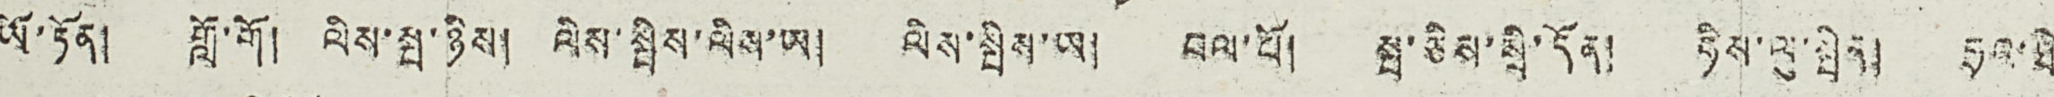ཡོ་ཏོན། གློ་གོ། ལིས་སྤ་ཉིས། ལིས་སྤིས་ལིས་ཡ། ལིས་སྤིས་ཡ། བལ་པོ། སྤ་ཅིས་སྲི་དོན། ཧིས་ལུ་སྤིན། ཧྲའ་ཐི་
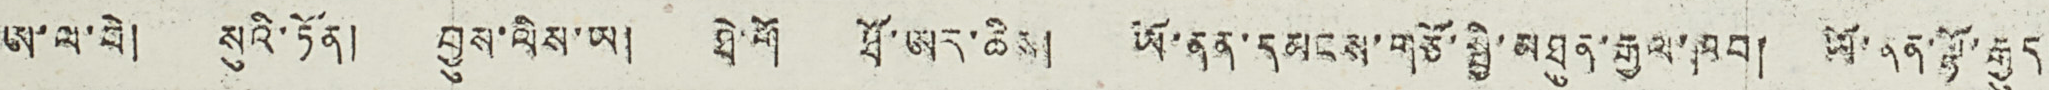ཨ་ལ་བེ། སུའི་ཏོན། བྱུས་ལིས་ཡ། ཐེ་གོ ཐོ་ཨར་ཆིས། ཡོ་ནན་དམངས་གཙོ་སྤྱི་མཐུན་རྒྱལ་ཁབ། ཡོ་ནན་ལྷོ་རྒྱུད།
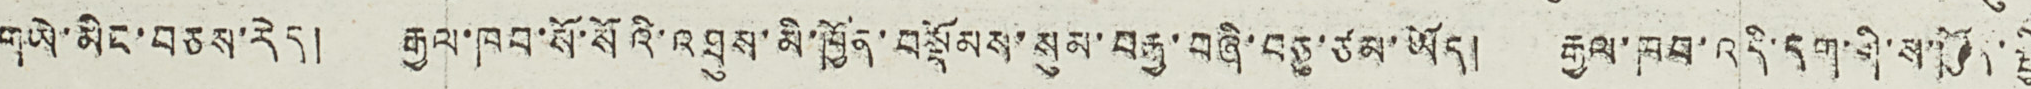གཡེ་མིང་བཅས་རེད། རྒྱལ་ཁབ་སོ་སོའི་འཐུས་མི་ཁྱོན་བསྡོམས་སུམ་བརྒྱ་བཞི་བཅུ་ཙམ་ཡོད། རྒྱལ་ཁབ་འདི་དག་གི་ས་ཁྱོན་སྤྱི་
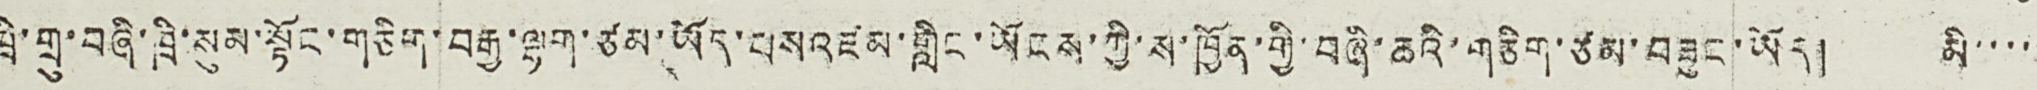ཁྲི་གྲུ་བཞི་ཁྲི་སུམ་སྟོང་གཅིག་བརྒྱ་ལྷག་ཙམ་ཡོད་པས འཛམ་གླིང་ཡོངས་ཀྱི་ས་ཁྱོན་གྱི་བཞི་ཆའི་གཅིག་ཙམ་བཟུང་ཡོད། མི་་་་་
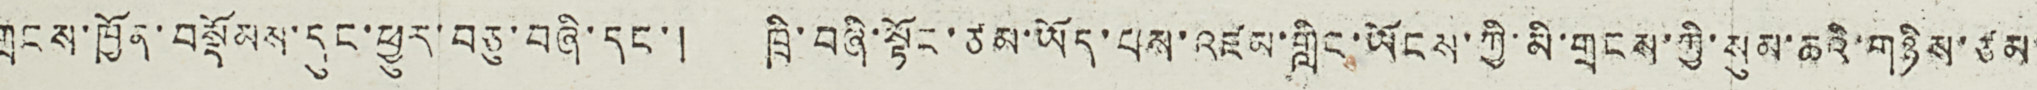གྲངས་ཁྱོན་བསྡོམས་དུང་ཕྱུར་བཅུ་བཞི་དང་། ཁྲི་བཞི་སྟོང་ཙམ་ཡོད་པས་འཛམ་གླིང་ཡོངས་ཀྱི་མི་གྲངས་ཀྱི་སུམ་ཆའི་གཉིས་ཙམ་
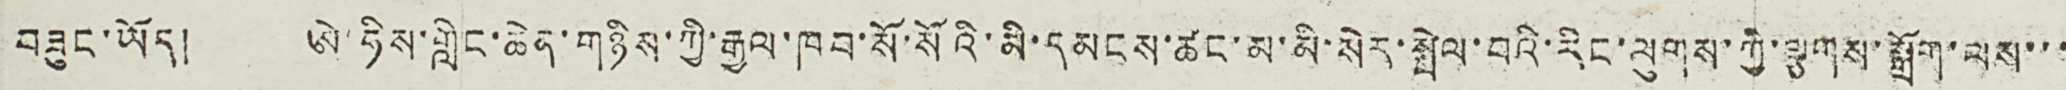བཟུང་ཡོད། ཨེ་ཧིས་གླིང་ཆེན་གཉིས་ཀྱི་རྒྱལ་ཁབ་སོ་སོའི་མི་དམངས་ཚང་མ་མི་སེར་སྤེལ་བའི་རིང་ལུགས་ཀྱི་ལྕགས་སྒྲོག་ལས་་་
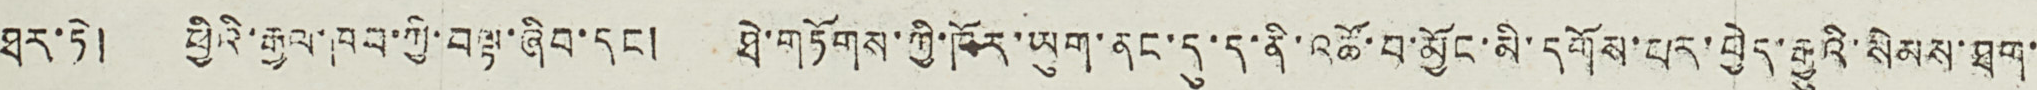ཐར་ཏེ། ཕྱིའི་རྒྱལ་ཁབ་ཀྱི་བལྟ་ཞིབ་དང ། ཐེ་གཏོགས་ཀྱི་ཁོར་ཡུག་ནང་དུ་ད་ནི་འཚོ་བ་མྱོང་མི་དགོས་པར་བྱེད་རྒྱུའི་སེམས་ཐག་་
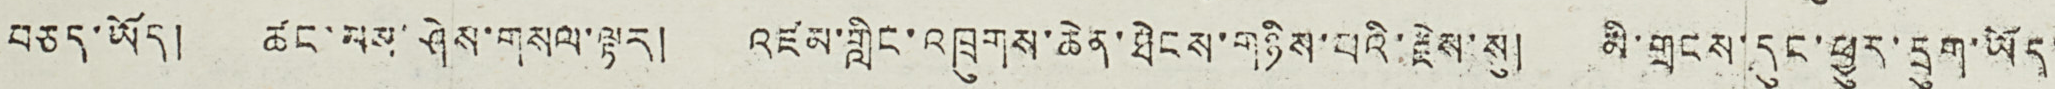བཅད་ཡོད། ཚང་མས་ཤེས་གསལ་ལྟར། འཛམ་གླིང་འཁྲུགས་ཆེན་ཐེངས་གཉིས་པའི་རྗེས་སུ། མི་གྲངས་དུང་ཕྱུར་དྲུག་ཡོད་
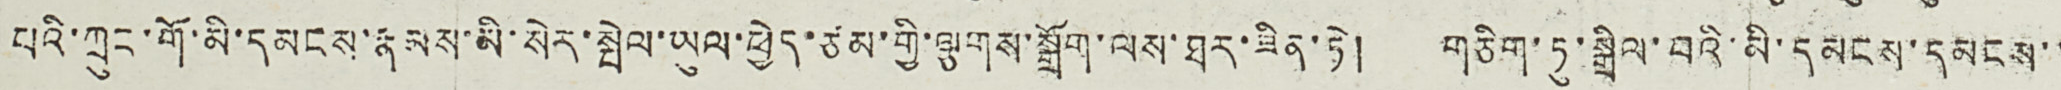པའི་ཀྲུང་གོ་མི་དམངས་རྣམས་མི་སེར་སྤེལ་ཡུལ་ཕྱེད་ཙམ་གྱི་ལྕགས་སྒྲོག་ལས་ཐར་ཟིན་ཏེ། གཅིག་ཏུ་སྒྲིལ་བའི་མི་དམངས་དམངས་་
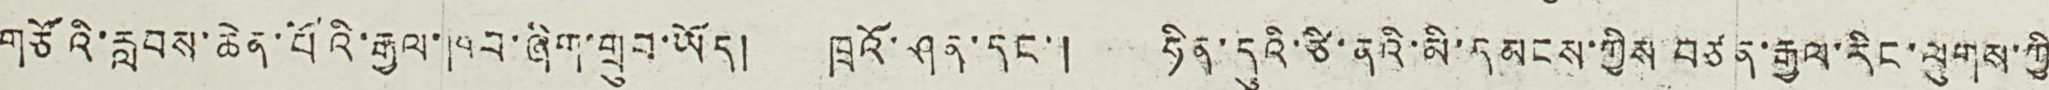གཙོའི་རླབས་ཆེན་པོའི་རྒྱལ་ཁབ་ཞིག་གྲུབ་ཡོད། ཁྲའོ་ཤན་དང་། ཧིན་དུའི་ཙི་ནའི་དམངས་ཀྱིས་བཙན་རྒྱལ་རིང་ལུགས་ཀྱི
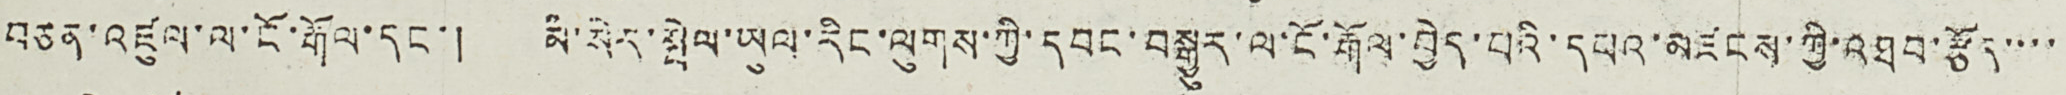བཅན་འཛུལ་ལ་ངོ་རྒོལ་དང་། མི་སེར་སྤེལ་ཡུལ་རིང་ལུགས་ཀྱི་དབང་བསྒྱུར་ལ་ངོ་རྒོལ་བྱེད་པའི་དཔའ་མཛངས་ཀྱི་འཐབ་རྩོད་་་་
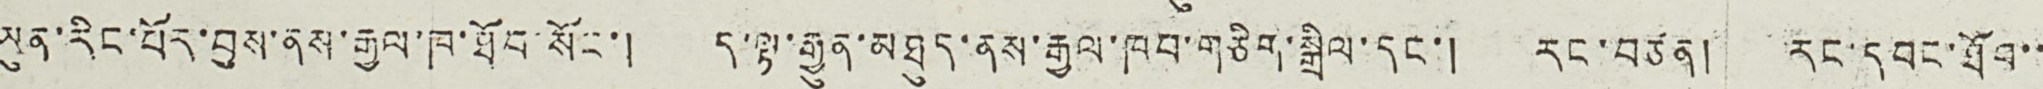ཡུན་རིང་པོར་བྱས་ནས་རྒྱལ་ཁ་ཐོབ་སོང་། ད་ལྟ་རྒྱུན་མཐུད་ནས་རྒྱལ་ཁབ་གཅིག་སྒྲིལ་དང་། རང་བཙན། རང་དབང་ཐོབ་་
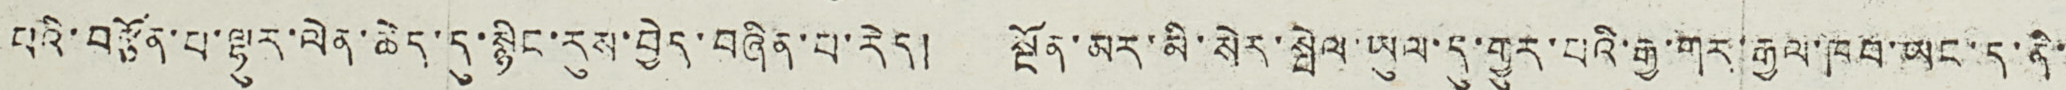པའི་བརྩོན་པ་ལྷུར་ལེན་ཆེན་དུ་སྙིང་རུས་བྱེད་བཞིན་པ་རེད། སྔོན་མར་མི་སེར་སྤེལ་ཡུལ་དུ་གྱུར་པའི་རྒྱ་གར་རྒྱལ་ཁབ་ཡང་ད་ནི་
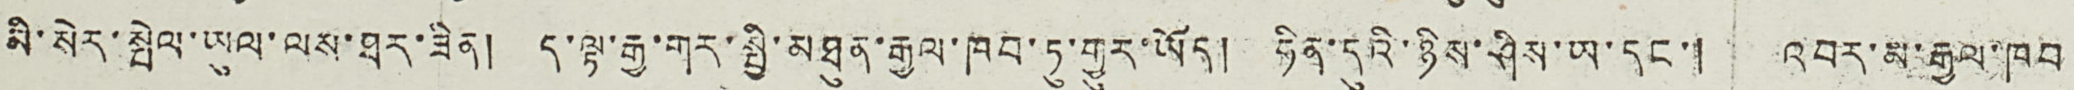མི་སེར་སྤེལ་ཡུལ་ལས་ཐར་ཟིན། ད་ལྟ་རྒྱ་གར་སྤྱི་མཐུན་རྒྱལ་ཁབ་ཏུ་གྱུར་ཡོད། ཧིན་དུའི་ཉིས་ཤིས་ཡ་དང་། འབར་མ་རྒྱལ་ཁབ
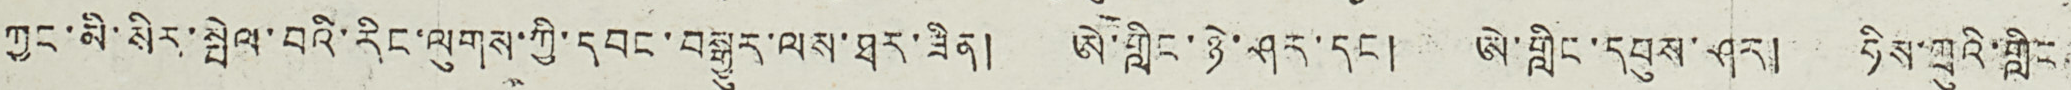ཀྱང་མི་སིར་སྤེལ་བའི་རིང་ལུགས་ཀྱི་དབང་བསྒྱུར་ལས་ཐར་ཟིན། ཨེ་གླིང་ཉེ་ཤར་དང ། ཨེ་གླིང་དབུས་ཤར། ཧིས་ཀྲུའི་གླིང
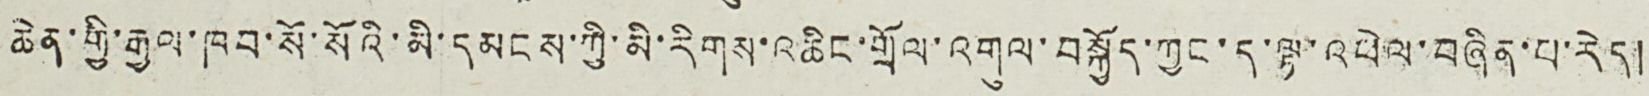ཆེན་གྱི་རྒྱལ་ཁབ་སོ་སོའི་མི་དམངས་ཀྱི་མི་རིགས་འཆིང་གྲོལ་འགུལ་བསྐྱོད་ཀྱང་ད་ལྟ་འཕེལ་བཞིན་རེད།
